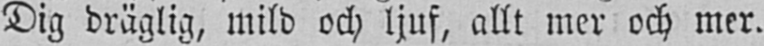Dig dräglig, mild och ljuf, allt mer och mer.
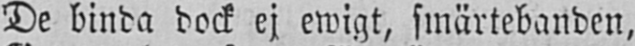De binda dock ej ewigt, smärtebanden,
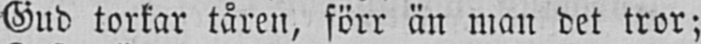Gud torkar tåren, förr än man det tror;
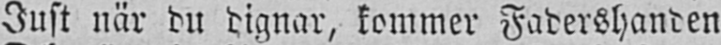Just när du dignar, kommer Fadershanden
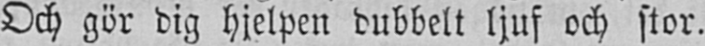Och gör dig hjelpen dubbelt ljuf och stor.
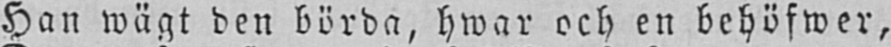Han wägt den börda, hwar och en behöfwer.
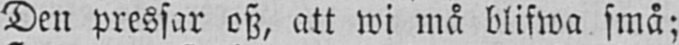Den pressar osz, att wi må blifwa små;
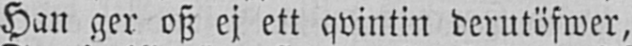Han ger osz ej ett qvintin derutöfwer,
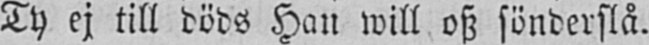Ty ej till döds Han will osz sönderslå.
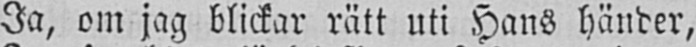Ja, om jag blickar rätt uti Hans händer,
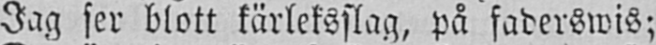Jag ser blott kärleksslag, på faderswis;
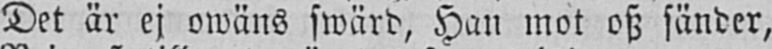Det är ej owäns swärd, Han mot osz sänder,
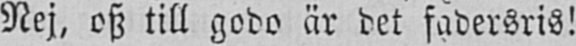Nej, osz till godo är det fadersris!
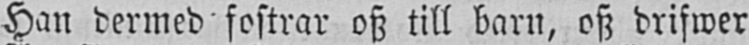Han dermed fostrar osz till barn, osz drifwer
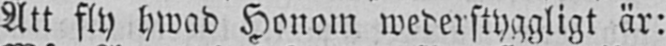Att fly hwad Honom wederstyggligt är:
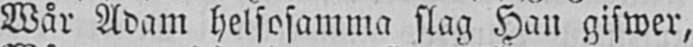Wår Adam helsosamma slag Han gifwer,
